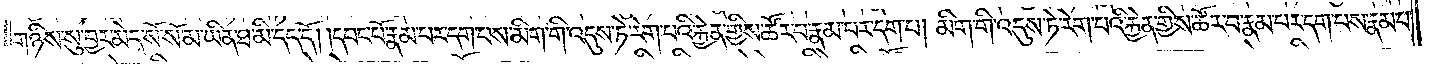གཉིས་སུ་བྱར་མེད་སོ་སོ་མ་ཡིན་ཐ་མི་དད་དོ། །དབང་པོ་རྣམ་པར་དག་པས་མིག་གི་འདུས་ཏེ་རེག་པའི་རྐྱེན་གྱིས་ཚོར་བ་རྣམ་པར་དག་པ། མིག་གི་འདུས་ཏེ་རེག་པའི་རྐྱེན་གྱིས་ཚོར་བ་རྣམ་པར་དག་པས་རྣམ་པ་
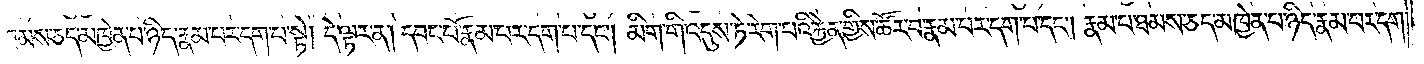ཐམས་ཅད་མཁྱེན་པ་ཉིད་རྣམ་པར་དག་པ་སྟེ། དེ་ལྟར་ན། དབང་པོ་རྣམ་པར་དག་པ་དང༌། མིག་གི་འདུས་ཏེ་རེག་པའི་རྐྱེན་གྱིས་ཚོར་བ་རྣམ་པར་དག་པ་དང༌། རྣམ་པ་ཐམས་ཅད་མཁྱེན་པ་ཉིད་རྣམ་པར་དག་
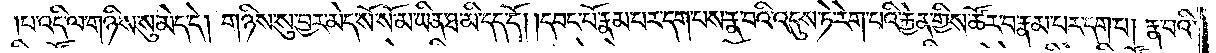པ་འདི་ལ་གཉིས་སུ་མེད་དེ། གཉིས་སུ་བྱར་མེད་སོ་སོ་མ་ཡིན་ཐ་མི་དད་དོ། །དབང་པོ་རྣམ་པར་དག་པས་རྣ་བའི་འདུས་ཏེ་རེག་པའི་རྐྱེན་གྱིས་ཚོར་བ་རྣམ་པར་དག་པ། རྣ་བའི་
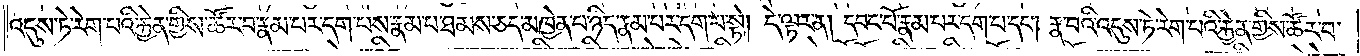འདུས་ཏེ་རེག་པའི་རྐྱེན་གྱིས་ཚོར་བ་རྣམ་པར་དག་པས་རྣམ་པ་ཐམས་ཅད་མཁྱེན་པ་ཉིད་རྣམ་པར་དག་པ་སྟེ། དེ་ལྟར་ན། དབང་པོ་རྣམ་པར་དག་པ་དང༌། རྣ་བའི་འདུས་ཏེ་རེག་པའི་རྐྱེན་གྱིས་ཚོར་བ་
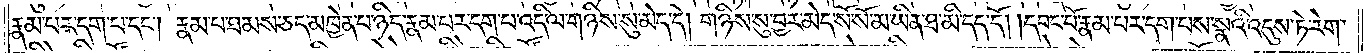རྣམ་པར་དག་པ་དང༌། རྣམ་པ་ཐམས་ཅད་མཁྱེན་པ་ཉིད་རྣམ་པར་དག་པ་འདི་ལ་གཉིས་སུ་མེད་དེ། གཉིས་སུ་བྱར་མེད་སོ་སོ་མ་ཡིན་ཐ་མི་དད་དོ། །དབང་པོ་རྣམ་པར་དག་པས་སྣའི་འདུས་ཏེ་རེག་
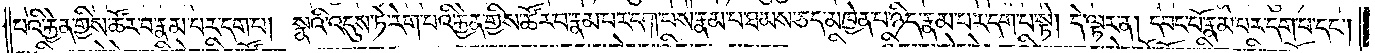པའི་རྐྱེན་གྱིས་ཚོར་བ་རྣམ་པར་དག་པ། སྣའི་འདུས་ཏེ་རེག་པའི་རྐྱེན་གྱིས་ཚོར་བ་རྣམ་པར་དག་པས་རྣམ་པ་ཐམས་ཅད་མཁྱེན་པ་ཉིད་རྣམ་པར་དག་པ་སྟེ། དེ་ལྟར་ན། དབང་པོ་རྣམ་པར་དག་པ་དང༌།
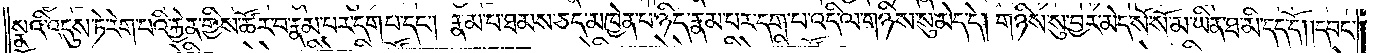སྣའི་འདུས་ཏེ་རེག་པའི་རྐྱེན་གྱིས་ཚོར་བ་རྣམ་པར་དག་པ་དང༌། རྣམ་པ་ཐམས་ཅད་མཁྱེན་པ་ཉིད་རྣམ་པར་དག་པ་འདི་ལ་གཉིས་སུ་མེད་དེ། གཉིས་སུ་བྱར་མེད་སོ་སོ་མ་ཡིན་ཐ་མི་དད་དོ། །དབང་
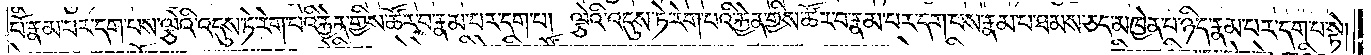པོ་རྣམ་པར་དག་པས་ལྕེའི་འདུས་ཏེ་རེག་པའི་རྐྱེན་གྱིས་ཚོར་བ་རྣམ་པར་དག་པ། ལྕེའི་འདུས་ཏེ་རེག་པའི་རྐྱེན་གྱིས་ཚོར་བ་རྣམ་པར་དག་པས་རྣམ་པ་ཐམས་ཅད་མཁྱེན་པ་ཉིད་རྣམ་པར་དག་པ་སྟེ།
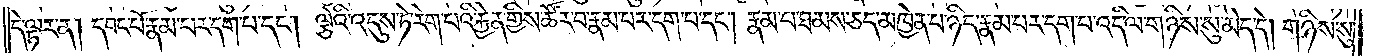དེ་ལྟར་ན། དབང་པོ་རྣམ་པར་དག་པ་དང༌། ལྕེའི་འདུས་ཏེ་རེག་པའི་རྐྱེན་གྱིས་ཚོར་བ་རྣམ་པར་དག་པ་དང༌། རྣམ་པ་ཐམས་ཅད་མཁྱེན་པ་ཉིད་རྣམ་པར་དག་པ་འདི་ལ་གཉིས་སུ་མེད་དེ། གཉིས་སུ་
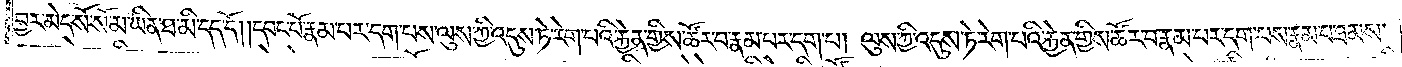བྱར་མེད་སོ་སོ་མ་ཡིན་ཐ་མི་དད་དོ། །དབང་པོ་རྣམ་པར་དག་པས་ལུས་ཀྱི་འདུས་ཏེ་རེག་པའི་རྐྱེན་གྱིས་ཚོར་བ་རྣམ་པར་དག་པ། ལུས་ཀྱི་འདུས་ཏེ་རེག་པའི་རྐྱེན་གྱིས་ཚོར་བ་རྣམ་པར་དག་པས་རྣམ་པ་ཐམས་
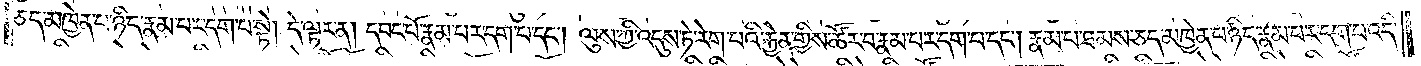ཅད་མཁྱེན་པ་ཉིད་རྣམ་པར་དག་པ་སྟེ། དེ་ལྟར་ན། དབང་པོ་རྣམ་པར་དག་པ་དང༌། ལུས་ཀྱི་འདུས་ཏེ་རེག་པའི་རྐྱེན་གྱིས་ཚོར་པ་རྣམ་པར་དག་པ་དང༌། རྣམ་པ་ཐམས་ཅད་མཁྱེན་པ་ཉིད་རྣམ་པར་དག་པ་འདི་
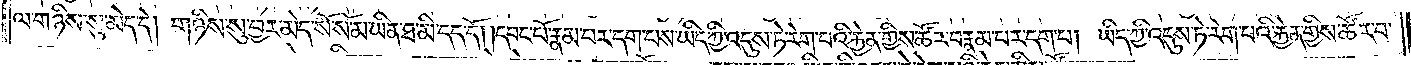ལ་གཉིས་སུ་མེད་དེ། གཉིས་སུ་བྱར་མེད་སོ་སོ་མ་ཡིན་ཐ་མི་དད་དོ། །དབང་པོ་རྣམ་པར་དག་པས་ཡིད་ཀྱི་འདུས་ཏེ་རེག་པའི་རྐྱེན་གྱིས་ཚོར་བ་རྣམ་པར་དག་པ། ཡིད་ཀྱི་འདུས་ཏེ་རེག་པའི་རྐྱེན་གྱིས་ཚོར་བ་
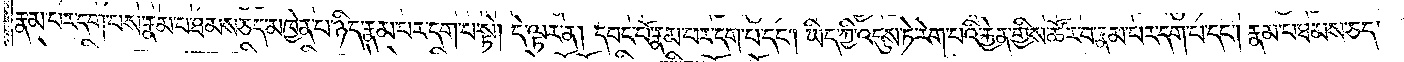རྣམ་པར་དག་པས་རྣམ་པ་ཐམས་ཅད་མཁྱེན་པ་ཉིད་རྣམ་པར་དག་པ་སྟེ། དེ་ལྟར་ན། དབང་པོ་རྣམ་པར་དག་པ་དང༌། ཡིད་ཀྱི་འདུས་ཏེ་རེག་པའི་རྐྱེན་གྱིས་ཚོར་བ་རྣམ་པར་དག་པ་དང༌། རྣམ་པ་ཐམས་ཅད་
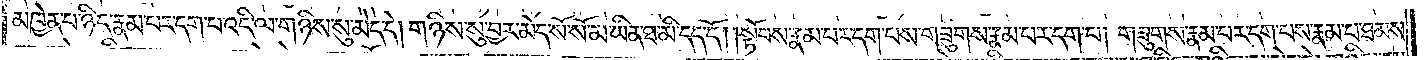མཁྱེན་པ་ཉིད་རྣམ་པར་དག་པ་འདི་ལ་གཉིས་སུ་མེད་དེ། གཉིས་སུ་བྱར་མེད་སོ་སོ་མ་ཡིན་ཐ་མི་དད་དོ། །སྟོབས་རྣམ་པར་དག་པས་གཟུགས་རྣམ་པར་དག་པ། གཟུགས་རྣམ་པར་དག་པས་རྣམ་པ་ཐམས་
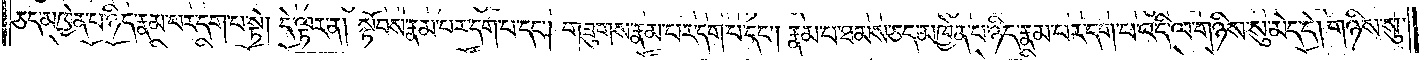ཅད་མཁྱེན་པ་ཉིད་རྣམ་པར་དག་པ་སྟེ། དེ་ལྟར་ན། སྟོབས་རྣམ་པར་དག་པ་དང༌། གཟུགས་རྣམ་པར་དག་པ་དང༌། རྣམ་པ་ཐམས་ཅད་མཁྱེན་པ་ཉིད་རྣམ་པར་དག་པ་འདི་ལ་གཉིས་སུ་མེད་དེ། གཉིས་སུ་
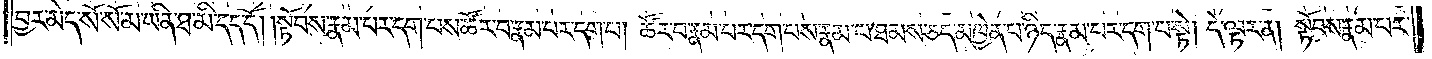བྱར་མེད་སོ་སོ་མ་ཡིན་ཐ་མི་དད་དོ། །སྟོབས་རྣམ་པར་དག་པས་ཚོར་བ་རྣམ་པར་དག་པ། ཚོར་བ་རྣམ་པར་དག་པས་རྣམ་པ་ཐམས་ཅད་མཁྱེན་པ་ཉིད་རྣམ་པར་དག་པ་སྟེ། དེ་ལྟར་ན། སྟོབས་རྣམ་པར་
